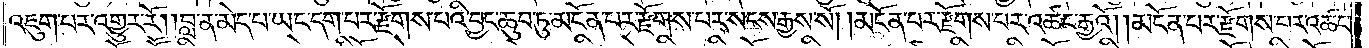འཇུག་པར་འགྱུར་རོ། །བླ་ན་མེད་པ་ཡང་དག་པར་རྫོགས་པའི་བྱང་ཆུབ་ཏུ་མངོན་པར་རྫོགས་པར་སངས་རྒྱས་སོ། །མངོན་པར་རྫོགས་པར་འཚང་རྒྱའོ། །མངོན་པར་རྫོགས་པར་འཚང་
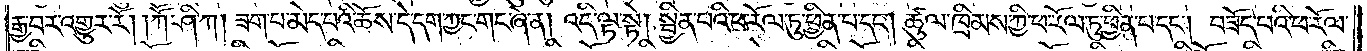རྒྱ་བར་འགྱུར་རོ། །ཀཽ་ཤི་ཀ། ཟག་པ་མེད་པའི་ཆོས་དེ་དག་ཀྱང་གང་ཞེ་ན། འདི་ལྟ་སྟེ། སྦྱིན་པའི་ཕ་རོལ་ཏུ་ཕྱིན་པ་དང༌། ཚུལ་ཁྲིམས་ཀྱི་ཕ་རོལ་ཏུ་ཕྱིན་པ་དང༌། བཟོད་པའི་ཕ་རོལ་
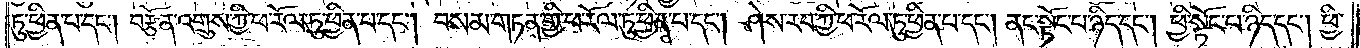ཏུ་ཕྱིན་པ་དང༌། བརྩོན་འགྲུས་ཀྱི་ཕ་རོལ་ཏུ་ཕྱིན་པ་དང༌། བསམ་གཏན་གྱི་ཕ་རོལ་ཏུ་ཕྱིན་པ་དང༌། ཤེས་རབ་ཀྱི་ཕ་རོལ་ཏུ་ཕྱིན་པ་དང༌། ནང་སྟོང་པ་ཉིད་དང༌། ཕྱི་སྟོང་པ་ཉིད་དང༌། ཕྱི་
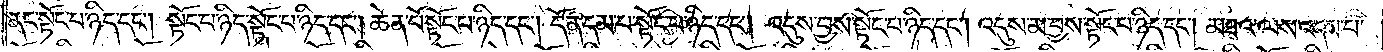ནང་སྟོང་པ་ཉིད་དང༌། སྟོང་པ་ཉིད་སྟོང་པ་ཉིད་དང༌། ཆེན་པོ་སྟོང་པ་ཉིད་དང༌། དོན་དམ་པ་སྟོང་པ་ཉིད་དང༌། འདུས་བྱས་སྟོང་པ་ཉིད་དང༌། འདུས་མ་བྱས་སྟོང་པ་ཉིད་དང༌། མཐའ་ལས་འདས་པ་
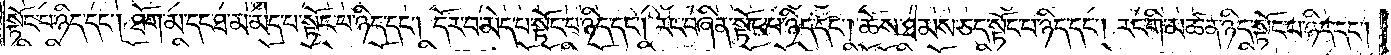སྟོང་པ་ཉིད་དང༌། ཐོག་མ་དང་ཐ་མ་མེད་པ་སྟོང་པ་ཉིད་དང༌། དོར་བ་མེད་པ་སྟོང་པ་ཉིད་དང༌། རང་བཞིན་སྟོང་པ་ཉིད་དང༌། ཆོས་ཐམས་ཅད་སྟོང་པ་ཉིད་དང༌། རང་གི་མཚན་ཉིད་སྟོང་པ་ཉིད་དང༌།
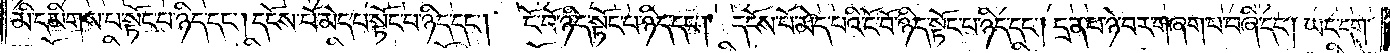མི་དམིགས་པ་སྟོང་པ་ཉིད་དང༌། དངོས་པོ་མེད་པ་སྟོང་པ་ཉིད་དང༌། ངོ་བོ་ཉིད་སྟོང་པ་ཉིད་དང༌། དངོས་པོ་མེད་པའི་ངོ་བོ་ཉིད་སྟོང་པ་ཉིད་དང༌། དྲན་པ་ཉེ་བར་གཞག་པ་བཞི་དང༌། ཡང་དག་
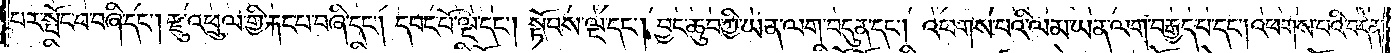པར་སྤོང་བ་བཞི་དང༌། རྫུ་འཕྲུལ་གྱི་རྐང་པ་བཞི་དང༌། དབང་པོ་ལྔ་དང༌། སྟོབས་ལྔ་དང༌། བྱང་ཆུབ་ཀྱི་ཡན་ལག་བདུན་དང༌། འཕགས་པའི་ལམ་ཡན་ལག་བརྒྱད་པ་དང༌། འཕགས་པའི་བདེན་
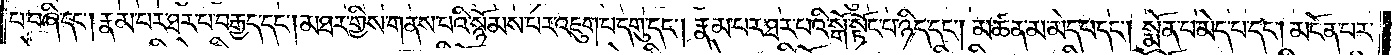པ་བཞི་དང༌། རྣམ་པར་ཐར་པ་བརྒྱད་དང༌། མཐར་གྱིས་གནས་པའི་སྙོམས་པར་འཇུག་པ་དགུ་དང༌། རྣམ་པར་ཐར་པའི་སྒོ་སྟོང་པ་ཉིད་དང༌། མཚན་མ་མེད་པ་དང༌། སྨོན་པ་མེད་པ་དང༌། མངོན་པར་
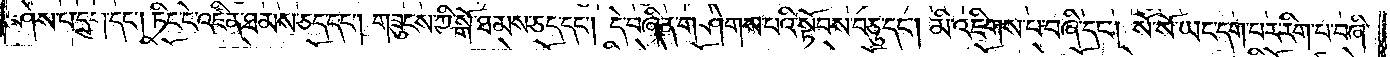ཤེས་པ་དྲུག་དང༌། ཏིང་ངེ་འཛིན་ཐམས་ཅད་དང༌། གཟུངས་ཀྱི་སྒོ་ཐམས་ཅད་དང༌། དེ་བཞིན་གཤེགས་པའི་སྟོབས་བཅུ་དང༌། མི་འཇིགས་པ་བཞི་དང༌། སོ་སོ་ཡང་དག་པར་རིག་པ་བཞི་
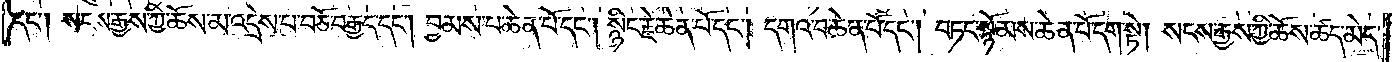དང༌། སངས་རྒྱས་ཀྱི་ཆོས་མ་འདྲེས་པ་བཅོ་བརྒྱད་དང༌། བྱམས་པ་ཆེན་པོ་དང༌། སྙིང་རྗེ་ཆེན་པོ་དང༌། དགའ་བ་ཆེན་པོ་དང༌། བཏང་སྙོམས་ཆེན་པོ་དག་སྟེ། སངས་རྒྱས་ཀྱི་ཆོས་ཚད་མེད་
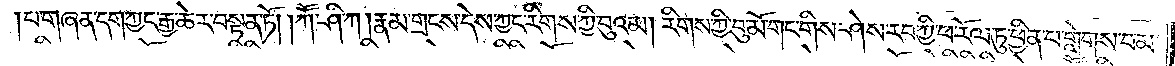པ་གཞན་དག་ཀྱང་རྒྱ་ཆེར་བསྟན་ཏོ། །ཀཽ་ཤི་ཀ། རྣམ་གྲངས་དེས་ཀྱང་རིགས་ཀྱི་བུའམ། རིགས་ཀྱི་བུ་མོ་གང་གིས་ཤེས་རབ་ཀྱི་ཕ་རོལ་ཏུ་ཕྱིན་པ་གླེགས་བམ་
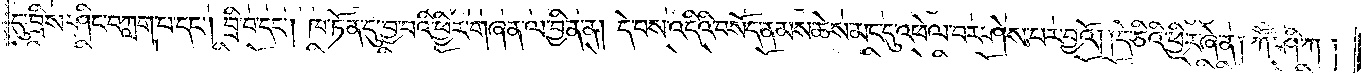དུ་བྲིས་ཤིང་བཀླག་པ་དང༌། བྲི་བ་དང༌། ཁ་ཏོན་དུ་བྱ་བའི་ཕྱིར་གཞན་ལ་བྱིན་ན། དེ་བས་འདིའི་བསོད་ནམས་ཆེས་མང་དུ་འཕེལ་བར་ཤེས་པར་བྱའོ། །དེ་ཅིའི་ཕྱིར་ཞེ་ན། ཀཽ་ཤི་ཀ།
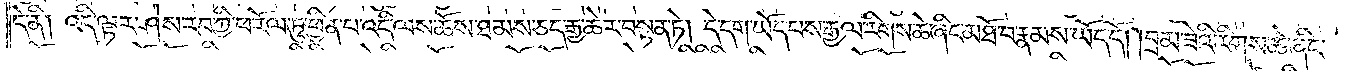དེ་ནི། འདི་ལྟར་ཤེས་རབ་ཀྱི་ཕ་རོལ་ཏུ་ཕྱིན་པ་འདི་ལས་ཆོས་ཐམས་ཅད་རྒྱ་ཆེར་བསྟན་ཏེ། དེ་དག་ཡོད་པས་རྒྱལ་རིགས་ཆེ་ཞིང་མཐོ་བ་རྣམས་ཡོད་དོ། །བྲམ་ཟེའི་རིགས་ཆེ་ཞིང་
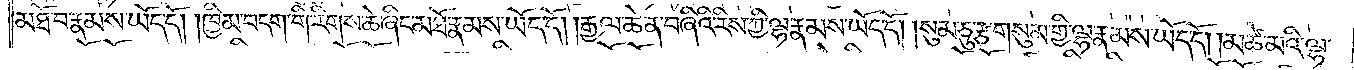མཐོ་བ་རྣམས་ཡོད་དོ། །ཁྱིམ་བདག་གི་རིགས་ཆེ་ཞིང་མཐོ་རྣམས་ཡོད་དོ། །རྒྱལ་ཆེན་བཞིའི་རིས་ཀྱི་ལྷ་རྣམས་ཡོད་དོ། །སུམ་ཅུ་རྩ་གསུམ་གྱི་ལྷ་རྣམས་ཡོད་དོ། །མཚེ་མའི་ལྷ་
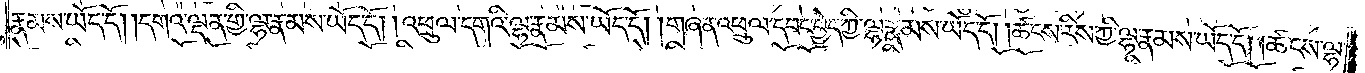རྣམས་ཡོད་དོ། །དགའ་ལྡན་གྱི་ལྷ་རྣམས་ཡོད་དོ། །འཕྲུལ་དགའི་ལྷ་རྣམས་ཡོད་དོ། །གཞན་འཕྲུལ་དབང་བྱེད་ཀྱི་ལྷ་རྣམས་ཡོད་དོ། །ཚངས་རིས་ཀྱི་ལྷ་རྣམས་ཡོད་དོ། །ཚངས་ལྷ་
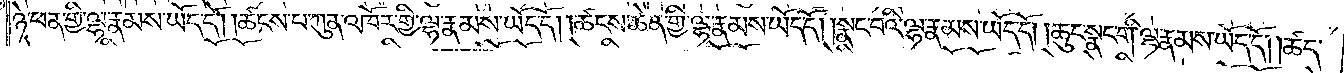ཉེ་ཕན་གྱི་ལྷ་རྣམས་ཡོད་དོ། །ཚངས་པ་ཀུན་འཁོར་གྱི་ལྷ་རྣམས་ཡོད་དོ། །ཚངས་ཆེན་གྱི་ལྷ་རྣམས་ཡོད་དོ། །སྣང་བའི་ལྷ་རྣམས་ཡོད་དོ། །ཆུང་སྣང་གི་ལྷ་རྣམས་ཡོད་དོ། །ཚད་
